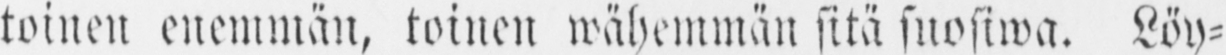toinen enemmän, toinen wähemmän sitä suosiwa. Löy-
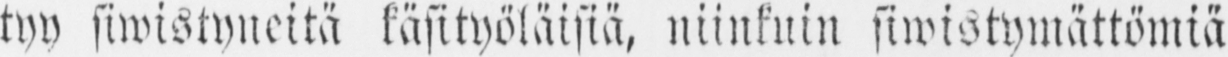tyy siwistyneitä käsityöläisiä, niinkuin siwistymättömiä
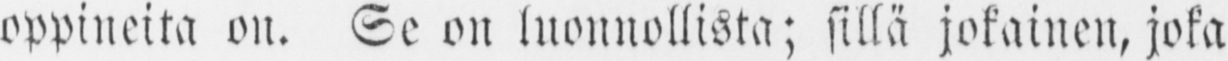oppineita on. Se on luonnollista; sillä jokainen, joka
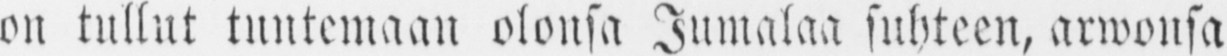on tullut tuntemaan olonsa Jumalan suhteen, arwonsa
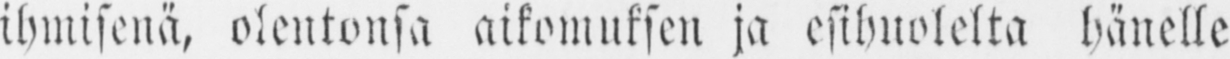ihmisenä, olentonsa aikomuksen ja esihuolelta hänelle
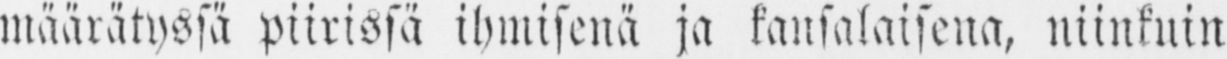määrätyssä piirissä ihmisenä ja kansalaisena, niinkuin
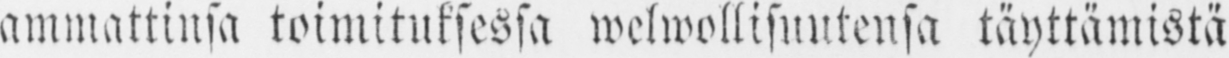ammattinsa toimituksessa welwollisuntensa täyttämistä
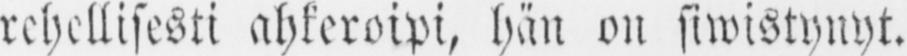rehellisesti ahkeroipi, hän on siwistynyt.
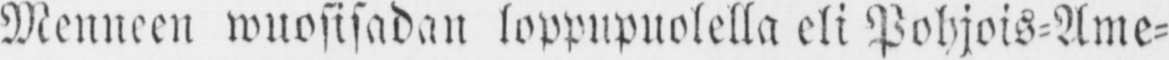Menneen wuosisadan loppupuolella eli Pohjois-Ame-
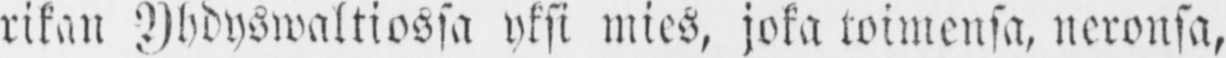rikan Yhdyswaltiossa yksi mies, joka toimensa, neronsa,
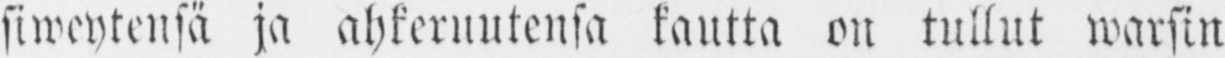siweytensä ja ahkeruutensa kautta on tullut warsin
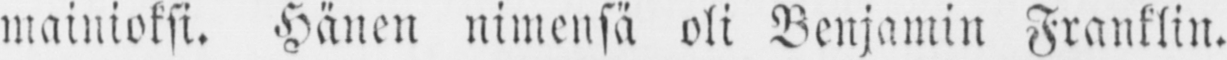mainioksi. Hänen nimensä oli Benjamin Franklin.
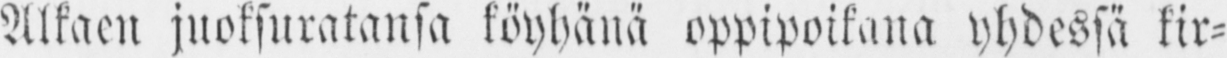Alkaen juoksuratansa köyhänä oppipoikana yhdessä kir-
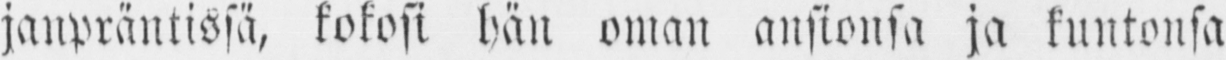janpräntissä, kokosi hän oman ansionsa ja kuntonsa
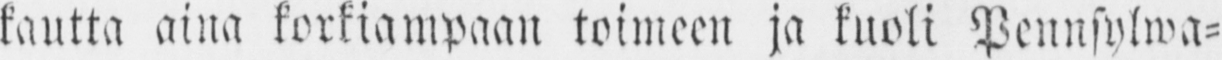kautta aina korkiampaan toimeen ja kuoli Pennsylwa-
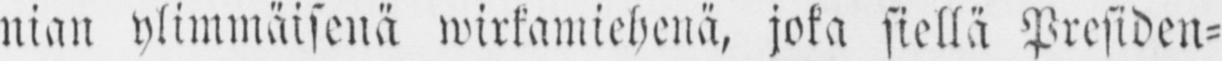nian ylimmäisenä wirkamiehenä, joka siellä Presiden-
